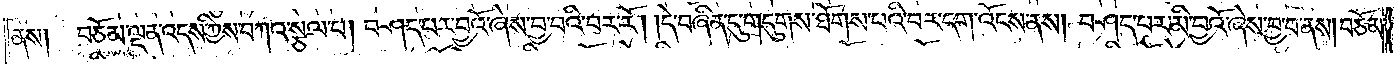ནས། བཅོམ་ལྡན་འདས་ཀྱིས་བཀའ་སྩལ་པ། བཤད་པར་བྱའོ་ཞེས་བྱ་བའི་བར་རོ། །དེ་བཞིན་དུ་གདུགས་ཐོགས་པའི་བར་དག་འོངས་ནས། བཤད་པར་མི་བྱའོ་ཞེས་བྱ་བ་ནས། བཅོམ་
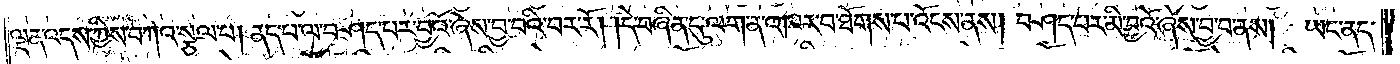ལྡན་འདས་ཀྱིས་བཀའ་སྩལ་པ། ནད་པ་ལ་བཤད་པར་བྱའོ་ཞེས་བྱ་བའི་བར་རོ། །དེ་བཞིན་དུ་ལག་ན་འཁར་བ་ཐོགས་པ་འོངས་ནས། བཤད་པར་མི་བྱའོ་ཞེས་བྱ་བ་ནས། ཡང་ནད་
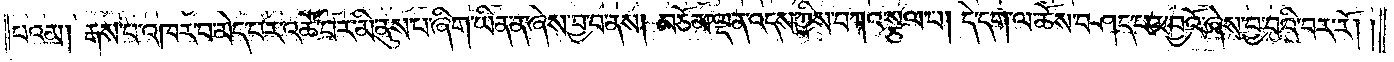པའམ། རྒས་པ་འཁར་བ་མེད་པར་འཚོ་བར་མི་ནུས་པ་ཞིག་ཡིན་ན་ཞེས་བྱ་བ་ནས། བཅོམ་ལྡན་འདས་ཀྱིས་བཀའ་སྩལ་པ། དེ་དག་ལ་ཆོས་བཤད་པར་བྱའོ་ཞེས་བྱ་བའི་བར་རོ། །
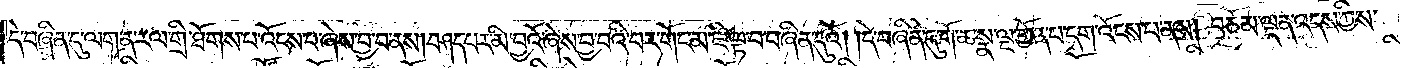དེ་བཞིན་དུ་ལག་ན་རལ་གྲི་ཐོགས་པ་འོངས་པ་ཞེས་བྱ་བ་ནས། བཤད་པར་མི་བྱའོ་ཞེས་བྱ་བའི་བར་གོང་མ་ཇི་ལྟ་བ་བཞིན་དུའོ། །དེ་བཞིན་དུ་གོ་ཆ་སྣ་ལྔ་གྱོན་པ་དག་འོངས་པ་ནས། བཅོམ་ལྡན་འདས་ཀྱིས་
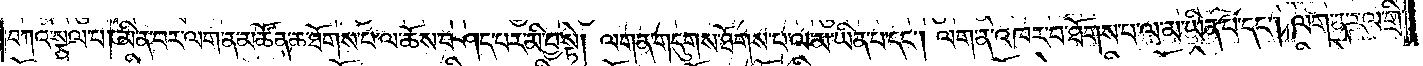བཀའ་སྩལ་པ། མི་ན་བར་ལག་ན་མཚོན་ཆ་ཐོགས་པ་ལ་ཆོས་བཤད་པར་མི་བྱ་སྟེ། ལག་ན་གདུགས་ཐོགས་པ་ལ་མ་ཡིན་པ་དང༌། ལག་ན་འཁར་བ་ཐོགས་པ་ལ་མ་ཡིན་པ་དང༌། ལག་ན་རལ་གྲི་
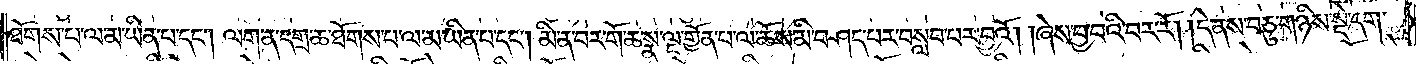ཐོགས་པ་ལ་མ་ཡིན་པ་དང༌། ལག་ན་དགྲ་ཆ་ཐོགས་པ་ལ་མ་ཡིན་པ་དང༌། མི་ན་བར་གོ་ཆ་སྣ་ལྔ་གྱོན་པ་ལ་ཆོས་མི་བཤད་པར་བསླབ་པར་བྱའོ། །ཞེས་བྱ་བའི་བར་རོ། །དེ་ནས་བཅུ་གཉིས་སྡེ་དག་
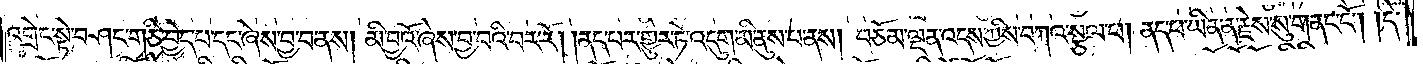འགྲེང་སྟེ་བཤང་གཅི་བྱེད་པ་དང་ཞེས་བྱ་བ་ནས། མི་བྱའོ་ཞེས་བྱ་བའི་བར་རོ། །ནད་པར་གྱུར་ཏེ་འདུག་མི་ནུས་པ་ནས། བཅོམ་ལྡན་འདས་ཀྱིས་བཀའ་སྩལ་པ། ནད་པ་ཡིན་ན་རྗེས་སུ་གནང་ངོ༌། །དེ་
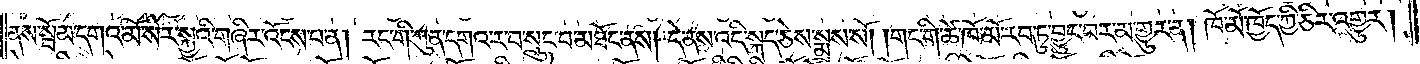ནས་སྦོམ་དགའ་མོ་སེར་སྐྱའི་གཞིར་འོངས་པ་ན། རང་གི་ཀུན་དགའ་ར་བ་སྲུང་བ་མཐོང་ནས། དེ་ནས་འདི་སྐད་ཅེས་སྨྲས་སོ། །གང་གི་ཚེ་ཁོ་མོ་རབ་ཏུ་བྱུང་བར་མ་གྱུར་ན། ཁོ་མོ་ཁྱོད་ཀྱི་ཅིར་འགྱུར།
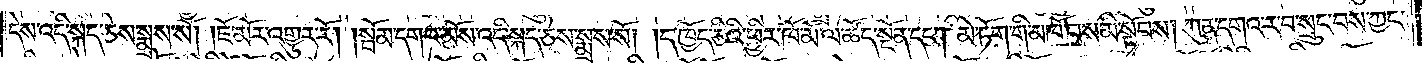དེས་འདི་སྐད་ཅེས་སྨྲས་སོ། །ཇོ་མོར་འགྱུར་རོ། །སྦོམ་དགའ་མོས་འདི་སྐད་ཅེས་སྨྲས་སོ། །ད་ཁྱོད་ཅིའི་ཕྱིར་ཁོ་མོ་ལ་ཚོད་སྔོན་དང༌། མེ་ཏོག་གི་མཁོ་བས་མི་སྟོབས། ཀུན་དགའ་ར་བ་སྲུང་བས་ཀྱང་
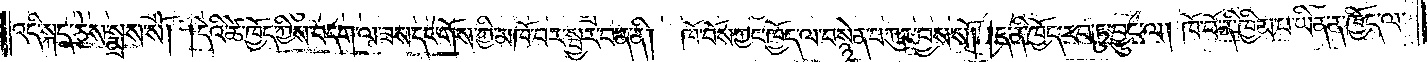འདི་སྐད་ཅེས་སྨྲས་སོ། །དེའི་ཚེ་ཁྱོད་ཀྱིས་བདག་ལ་ཟས་དང་གོས་ཀྱི་མཁོ་བར་སྦྱར་བ་ན་ནི། ཁོ་བོས་ཀྱང་ཁྱོད་ལ་བསྙེན་བཀུར་བྱས་སོ། །ད་ནི་ཁྱོད་རབ་ཏུ་བྱུང་ལ། ཁོ་བོ་ནི་ཁྱིམ་པ་ཡིན་ན་ཁྱོད་ལ་
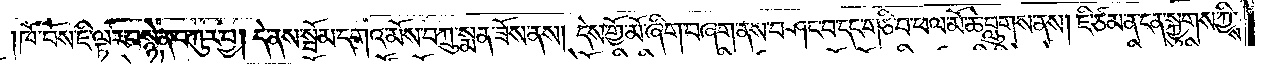ཁོ་བོས་ཇི་ལྟར་བསྙེན་བཀུར་བྱ། དེ་ནས་སྦོམ་དགའ་མོས་བཀྲུ་སྨན་ཟོས་ནས། དེས་གྱོ་མོ་ཞིག་བཞག་ནས་བཤང་བ་དང་གཅི་བ་ཕལ་མོ་ཆེ་བླུགས་ནས། ཇི་ཙམ་ན་ངན་སྐྱུགས་ཀྱིས་
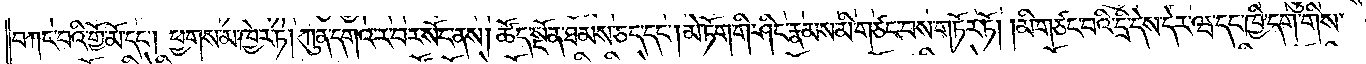བཀང་བའི་གྱོ་མོ་དང༌། ཕྱགས་མ་ཁྱེར་ཏེ། ཀུན་དགའ་ར་བར་སོང་ནས། ཚོད་སྔོན་ཐམས་ཅད་དང༌། མེ་ཏོག་གི་ཤིང་རྣམས་མི་གཙང་བས་གཏོར་ཏོ། །མི་གཙང་བའི་དྲི་དེས་དེར་ཝ་དང་ཁྱི་དག་གིས་
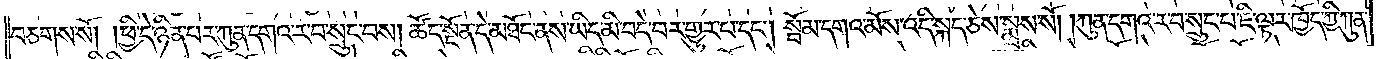བཅགས་སོ། །ཕྱི་དེ་ཉིན་པར་ཀུན་དགའ་ར་བ་སྲུང་བས། ཚོད་སྔོན་དེ་མཐོང་ནས་ཡིད་མི་བདེ་བར་གྱུར་པ་དང༌། སྦོམ་དགའ་མོས་འདི་སྐད་ཅེས་སྨྲས་སོ། །ཀུན་དགའ་ར་བ་སྲུང་བ་ཇི་ལྟར་ཁྱོད་ཀྱི་ཀུན་
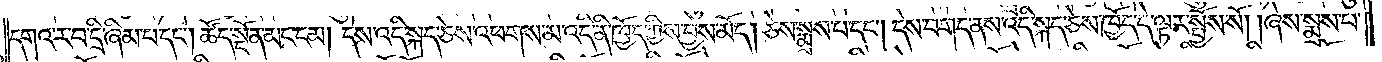དགའ་ར་བ་དྲི་ཞིམ་པ་དང༌། ཚོད་སྔོན་མང་ངམ། དེས་འདི་སྐད་ཅེས་འཕགས་མ་འདི་ནི་ཁྱོད་ཀྱིས་བྱས་མོད། ཅེས་སྨྲས་པ་དང༌། དེས་བགད་ནས་འདི་སྐད་ཅེས་ཁྱོད་དེ་ལྟར་སྤྱོས་སོ། །ཞེས་སྨྲས་པ་
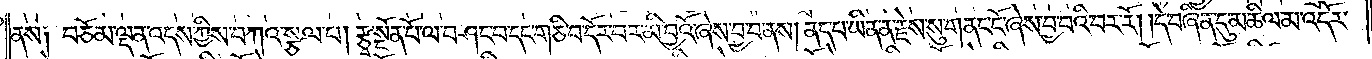ནས༑ བཅོམ་ལྡན་འདས་ཀྱིས་བཀའ་སྩལ་པ། རྩྭ་སྔོན་པོ་ལ་བཤང་བ་དང་གཅི་བ་དོར་བར་མི་བྱའོ་ཞེས་བྱ་བ་ནས། ནད་པ་ཡིན་ན་རྗེས་སུ་གནང་ངོ་ཞེས་བྱ་བའི་བར་རོ། །དེ་བཞིན་དུ་མཆིལ་མ་འདོར་
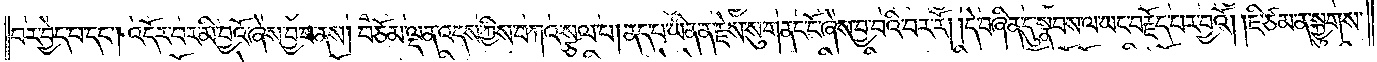བར་བྱེད་པ་དང༌། འདོར་བར་མི་བྱའོ་ཞེས་བྱ་བ་ནས། བཅོམ་ལྡན་འདས་ཀྱིས་བཀའ་སྩལ་པ། ནད་པ་ཡིན་ན་རྗེས་སུ་གནང་ངོ་ཞེས་བྱ་བའི་བར་རོ། །དེ་བཞིན་དུ་སྣབས་ལ་ཡང་བརྗོད་པར་བྱའོ། །ཇི་ཙམ་ན་སྐྱུགས་
